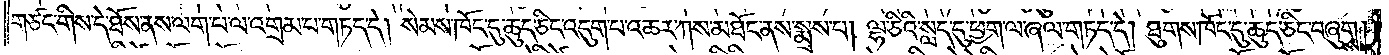གཙང་གིས་དེ་ཐོས་ནས་ལག་པ་ལ་འགྲམ་པ་གཏད་དེ། སེམས་ཁོང་དུ་ཆུད་ཅིང་འདུག་པ་འཆར་ཀས་མཐོང་ནས་སྨྲས་པ། ལྷ་ཅིའི་སླད་དུ་ཕྱག་ལ་ཞལ་གཏད་དེ། ཐུགས་ཁོང་དུ་ཆུད་ཅིང་བཞུགས།
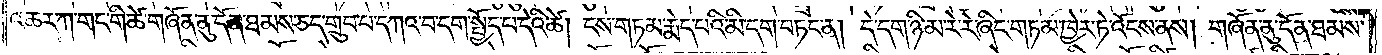འཆར་ཀ་གང་གི་ཚེ་གཞོན་ནུ་དོན་ཐམས་ཅད་གྲུབ་པ་དཀའ་བ་དག་སྤྱོད་པ་དེའི་ཚེ། ངས་གཏམ་རྨེད་པའི་མི་དག་བཏང་ན། དེ་དག་ཉི་མ་རེ་རེ་ཞིང་གཏམ་ཁྱེར་ཏེ་འོངས་ནས། གཞོན་ནུ་དོན་ཐམས་
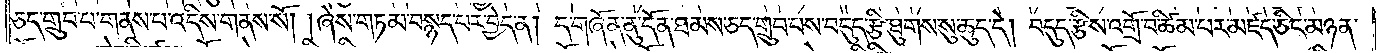ཅད་གྲུབ་པ་གནས་པ་འདིས་གནས་སོ། །ཞེས་གཏམ་བསྙད་པར་བྱེད་ན། ད་གཞོན་ནུ་དོན་ཐམས་ཅད་གྲུབ་པས་བདུད་རྩི་ཐུགས་སུ་ཆུད་དེ། བདུད་རྩིས་འགྲོ་བ་ཚིམ་པར་མཛད་ཅིང་མཉན་
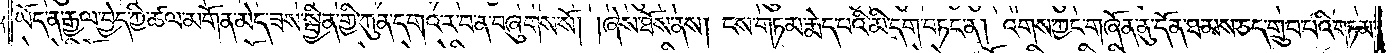ཡོད་ན་རྒྱལ་བྱེད་ཀྱི་ཚལ་མགོན་མེད་ཟས་སྦྱིན་གྱི་ཀུན་དགའ་ར་བ་ན་བཞུགས་སོ། །ཞེས་ཐོས་ནས། ངས་གཏམ་རྨེད་པའི་མི་དག་བཏང་ན། འགས་ཀྱང་གཞོན་ནུ་དོན་ཐམས་ཅད་གྲུབ་པའི་གཏམ་
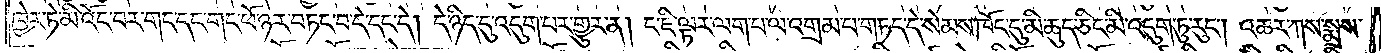ཁྱེར་ཏེ་མི་འོང་བར་གང་དང་གང་ཕོ་ཉར་བཏང་བ་དེ་དང་དེ། དེ་ཉིད་དུ་འདུག་པར་གྱུར་ན། ང་ཇི་ལྟར་ལག་པ་ལ་འགྲམ་པ་གཏད་དེ་སེམས་ཁོང་དུ་མི་ཆུད་ཅིང་མི་འདུག་ཏུ་རུང༌། འཆར་ཀས་སྨྲས་
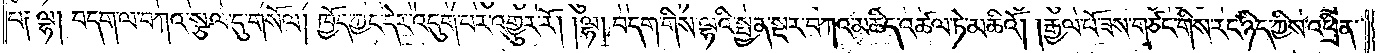པ༏ ལྷ། བདག་ལ་བཀའ་སྩལ་དུ་གསོལ། ཁྱོད་ཀྱང་དེར་འདུག་པར་འགྱུར་རོ། །ལྷ། བདག་གིས་ལྷའི་སྤྱན་སྔར་བཀའ་མཆིད་འཚལ་ཏེ་མཆིའོ། །རྒྱལ་པོ་ཟས་གཙང་གིས་རང་ཉིད་ཀྱིས་འཕྲིན་
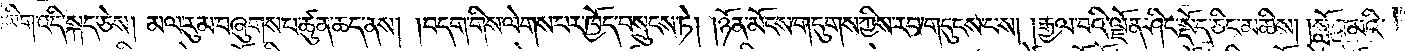ཡིག་འདི་སྐད་ཅེས། མལ་རུམ་བཞུགས་པ་ཚུན་ཆད་ནས། །བདག་གིས་ལེགས་པར་ཁྱོད་བསྲུངས་ཏེ། །ཉོན་མོངས་གདུགས་ཀྱིས་རབ་གདུངས་པས། །རྒྱལ་བའི་ལྗོན་ཤིང་སྡོད་ཅིང་མཆིས། །སློབ་མའི་
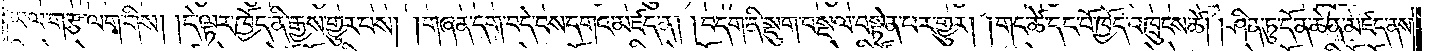ཡལ་ག་རྩ་ལག་གིས། །དེ་ལྟར་ཁྱོད་ནི་རྒྱས་གྱུར་པས། །གཞན་དག་བདེ་བས་དགའ་མཛད་ན། །བདག་ནི་སྡུག་བསྔལ་བསྟེན་པར་གྱུར། །གང་ཚེ་དང་པོ་ཁྱོད་འཁྲུངས་ཚེ། །ཤིན་ཏུ་དོན་ཆེན་མཛད་ནས་
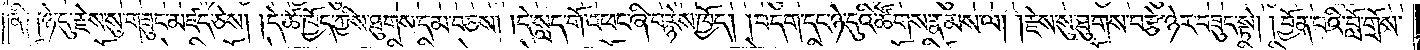ནི། །ཉེ་དུ་རྗེས་སུ་གཟུང་མཛད་ཅེས། །དེ་ཚེ་ཁྱོད་ཀྱིས་ཐུགས་དམ་བཅས། །དེ་སླད་གོ་འཕང་ཞི་བརྙེས་ཁྱོད། །བདག་དང་ཉེ་དུའི་ཚོགས་རྣམས་ལ། །རྗེས་སུ་ཐུགས་བརྩེ་ཉེར་བཟུང་སྟེ། །བྱོན་པའི་བློ་གྲོས་
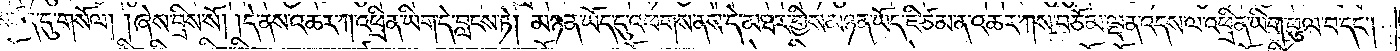མཛད་དུ་གསོལ། །ཞེས་བྲིས་སོ། །དེ་ནས་འཆར་ཀ་འཕྲིན་ཡིག་དེ་བླངས་ཏེ། མཉན་ཡོད་དུ་འཕགས་ནས་དེ་མཐར་གྱིས་མཉན་ཡོད་ཇི་ཙམ་ན་འཆར་ཀས་བཅོམ་ལྡན་འདས་ལ་འཕྲིན་ཡིག་ཕུལ་བ་དང༌།
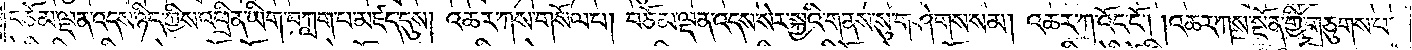བཅོམ་ལྡན་འདས་ཉིད་ཀྱིས་འཕྲིན་ཡིག་བཀླག་པ་མཛད་དུས། འཆར་ཀས་གསོལ་པ། བཅོམ་ལྡན་འདས་སེར་སྐྱའི་གནས་སུ་གཤེགས་སམ། འཆར་ཀ་འོང་ངོ༌། །འཆར་ཀས་སྔོན་གྱི་གཅུགས་པ་
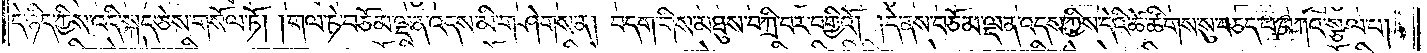དེ་ཉིད་ཀྱིས་འདི་སྐད་ཅེས་གསོལ་ཏོ། །གལ་ཏེ་བཅོམ་ལྡན་འདས་མི་གཤེགས་ན། བདག་གིས་མཐུས་བཀྲི་བར་བགྱིའོ། །དེ་ནས་བཅོམ་ལྡན་འདས་ཀྱིས་དེའི་ཚེ་ཚིགས་སུ་བཅད་པ་བཀའ་སྩལ་པ།
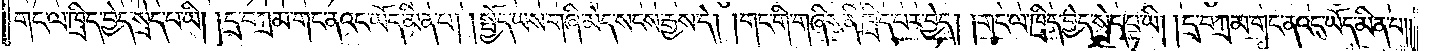གང་ལ་ཁྲིད་བྱེད་སྲེད་པ་ཡི། །དྲ་བཀྲམ་གང་ནའང་ཡོད་མིན་པ། །སྤྱོད་ཡས་གཞི་མེད་སངས་རྒྱས་དེ། །གང་གི་གཞིས་ནི་ཁྲིད་པར་བྱེད། །གང་ལ་ཁྲིད་བྱེད་སྲེད་པ་ཡི། །དྲ་བཀྲམ་གང་ནའང་ཡོད་མིན་པ༎
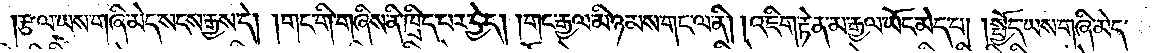རྩལ་ཡས་གཞི་མེད་སངས་རྒྱས་དེ། །གང་གི་གཞིས་ནི་ཁྲིད་པར་བྱེད། །གང་རྒྱལ་མི་ཉམས་གང་ལ་ནི། །འཇིག་རྟེན་མ་རྒྱལ་ཡོང་མེད་པ། །སྤྱོད་ཡས་གཞི་མེད་
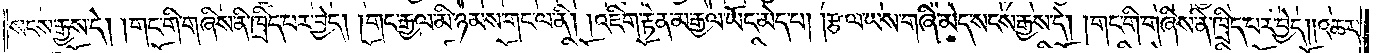སངས་རྒྱས་དེ། །གང་གི་གཞིས་ནི་ཁྲིད་པར་བྱེད། །གང་རྒྱལ་མི་ཉམས་གང་ལ་ནི། །འཇིག་རྟེན་མ་རྒྱལ་ཡོང་མེད་པ། །རྩལ་ཡས་གཞི་མེད་སངས་རྒྱས་དེ། །གང་གི་གཞིས་ནི་ཁྲིད་པར་བྱེད། །འཆར་
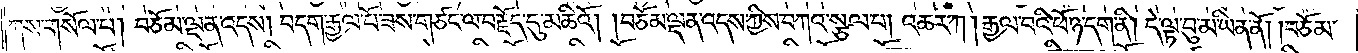ཀས་གསོལ་པ། བཅོམ་ལྡན་འདས། བདག་རྒྱལ་པོ་ཟས་གཙང་ལ་བརྗོད་དུ་མཆིའོ། །བཅོམ་ལྡན་འདས་ཀྱིས་བཀའ་སྩལ་པ། འཆར་ཀ། རྒྱལ་བའི་ཕོ་ཉ་དག་ནི། དེ་ལྟ་བུ་མ་ཡིན་ནོ། །བཅོམ་
